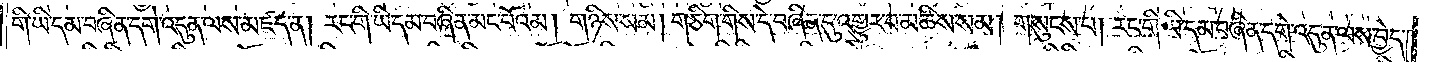གི་ཡི་དམ་བཞིན་དགེ་འདུན་ལས་མཛད་ན། རང་གི་ཡི་དམ་བཞིན་མང་པོའམ། གཉིས་སམ། གཅིག་གིས་དེ་བཞིན་དུ་འགྱུར་བ་མཆིས་སམ། གསུངས་པ། རང་གི་ཡི་དམ་བཞིན་དགེ་འདུན་ལས་བྱེད་
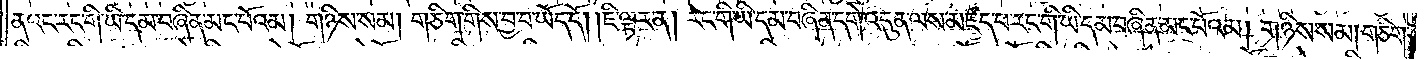ནའང་རང་གི་ཡི་དམ་བཞིན་མང་པོའམ། གཉིས་སམ། གཅིག་གིས་བྱ་བ་ཡོད་དོ། །ཇི་ལྟར་ན། རང་གི་ཡི་དམ་བཞིན་དགེ་འདུན་ལས་མཛད་པ་རང་གི་ཡི་དམ་བཞིན་མང་པོའམ། གཉིས་སམ། གཅིག་
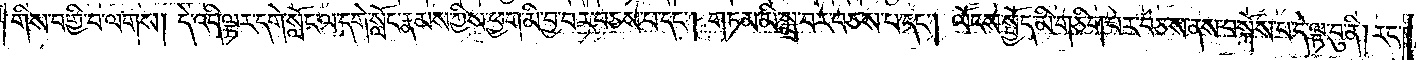གིས་བགྱི་བ་ལགས། དེ་འདི་ལྟར་དགེ་སློང་ལ་དགེ་སློང་རྣམས་ཀྱིས་ཕྱག་མི་བྱ་བར་བཅས་པ་དང༌། གཏམ་མི་སྨྲ་བར་བཅས་པ་དང༌། ལོངས་སྤྱོད་མི་གཅིག་པར་བཅས་ནས་བསྐོས་པ་དེ་ལྟ་བུ་ནི། རང་
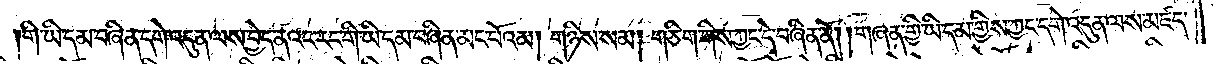གི་ཡི་དམ་བཞིན་དགེ་འདུན་ལས་བྱེད་ནའང་རང་གི་ཡི་དམ་བཞིན་མང་པོའམ། གཉིས་སམ། གཅིག་གིས་ཀྱང་དེ་བཞིན་ནོ། །གཞན་གྱི་ཡི་དམ་གྱིས་ཀྱང་དགེ་འདུན་ལས་མཛད་
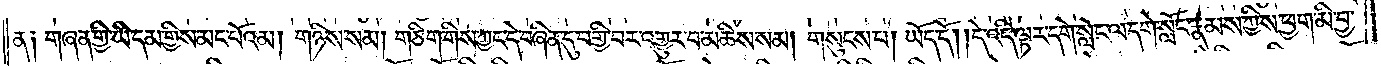ན༑ གཞན་གྱི་ཡི་དམ་གྱིས་མང་པོའམ། གཉིས་སམ། གཅིག་གིས་ཀྱང་དེ་བཞིན་དུ་བགྱི་བར་འགྱུར་བ་མཆིས་སམ། གསུངས་པ། ཡོད་དོ། །དེ་འདི་ལྟར་དགེ་སློང་ལ་དགེ་སློང་རྣམས་ཀྱིས་ཕྱག་མི་བྱ་
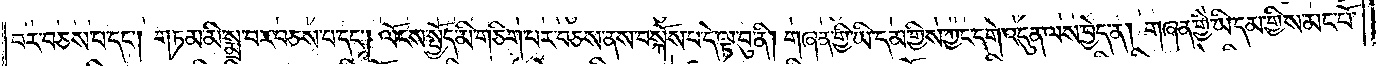བར་བཅས་པ་དང༌། གཏམ་མི་སྨྲ་བར་བཅས་པ་དང༌། ལོངས་སྤྱོད་མི་གཅིག་པར་བཅས་ནས་བསྐོས་པ་དེ་ལྟ་བུ་ནི། གཞན་གྱི་ཡི་དམ་གྱིས་ཀྱང་དགེ་འདུན་ལས་བྱེད་ན། གཞན་གྱི་ཡི་དམ་གྱིས་མང་པོ་
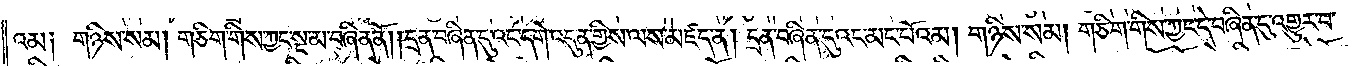འམ༑ གཉིས་སམ། གཅིག་གིས་ཀྱང་སྔ་མ་བཞིན་ནོ། །དྲན་བཞིན་དུའང་དགེ་འདུན་གྱིས་ལས་མཛད་ན། དྲན་བཞིན་དུའང་མང་པོའམ། གཉིས་སམ། གཅིག་གིས་ཀྱང་དེ་བཞིན་དུ་འགྱུར་བ་
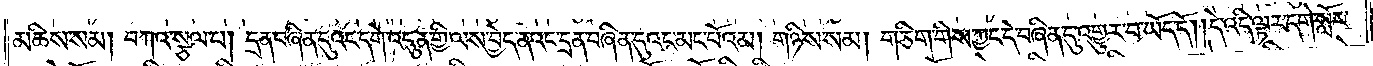མཆིས་སམ། བཀའ་སྩལ་པ། དྲན་བཞིན་དུའང་དགེ་འདུན་གྱི་ལས་བྱེད་ནའང་དྲན་བཞིན་དུའང་མང་པོའམ། གཉིས་སམ། གཅིག་གིས་ཀྱང་དེ་བཞིན་དུ་འགྱུར་བ་ཡོད་དོ། །དེ་འདི་ལྟར་དགེ་སློང་
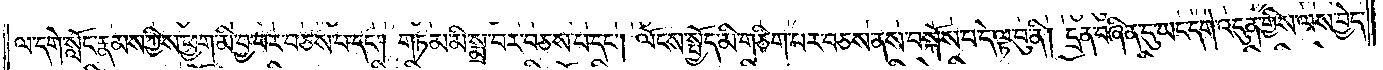ལ་དགེ་སློང་རྣམས་ཀྱིས་ཕྱག་མི་བྱ་བར་བཅས་པ་དང༌། གཏམ་མི་སྨྲ་བར་བཅས་པ་དང༌། ལོངས་སྤྱོད་མི་གཅིག་པར་བཅས་ནས་བསྐོས་པ་དེ་ལྟ་བུ་ནི། དྲན་བཞིན་དུ་ཡང་དགེ་འདུན་གྱིས་ལས་བྱེད་
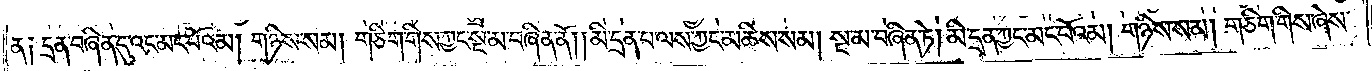ན༑ དྲན་བཞིན་དུའང་མང་པོའམ། གཉིས་སམ། གཅིག་གིས་ཀྱང་སྔ་མ་བཞིན་ནོ། །མི་དྲན་པ་ལས་ཀྱང་མཆིས་སམ། སྔ་མ་བཞིན་ཏེ། མི་དྲན་ཀྱང་མང་པོའམ། གཉིས་སམ། གཅིག་གིས་ཞེས་
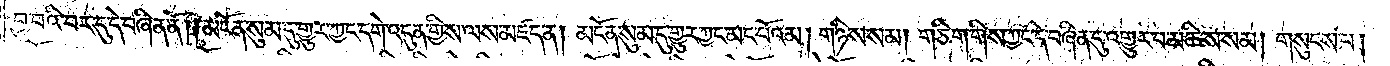བྱ་བའི་བར་དུ་དེ་བཞིན་ནོ། །མངོན་སུམ་དུ་གྱུར་ཀྱང་དགེ་འདུན་གྱིས་ལས་མཛད་ན། མངོན་སུམ་དུ་གྱུར་ཀྱང་མང་པོའམ། གཉིས་སམ། གཅིག་གིས་ཀྱང་དེ་བཞིན་དུ་འགྱུར་བ་མཆིས་སམ། གསུངས་པ།
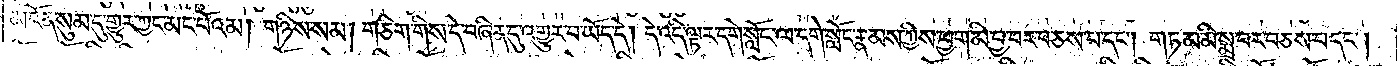མངོན་སུམ་དུ་གྱུར་ཀྱང་མང་པོའམ། གཉིས་སམ། གཅིག་གིས་དེ་བཞིན་དུ་འགྱུར་བ་ཡོད་དེ། དེ་འདི་ལྟར་དགེ་སློང་ལ་དགེ་སློང་རྣམས་ཀྱིས་ཕྱག་མི་བྱ་བར་བཅས་པ་དང༌། གཏམ་མི་སྨྲ་བར་བཅས་པ་དང༌།
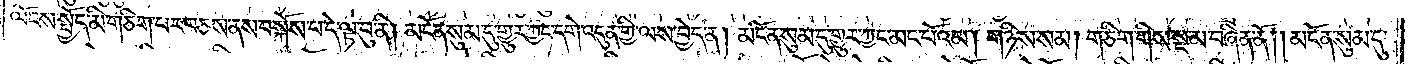ལོངས་སྤྱོད་མི་གཅིག་པར་བཅས་ནས་བསྐོས་པ་དེ་ལྟ་བུ་ནི། མངོན་སུམ་དུ་གྱུར་ཀྱང་དགེ་འདུན་གྱི་ལས་བྱེད་ན། མངོན་སུམ་དུ་གྱུར་ཀྱང་མང་པོའམ། གཉིས་སམ། གཅིག་གིས་སྔ་མ་བཞིན་ནོ། །མངོན་སུམ་དུ་
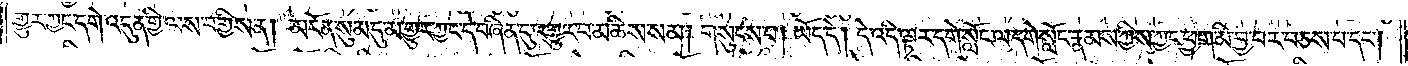གྱུར་ཀྱང་དགེ་འདུན་གྱི་ལས་བགྱིས་ན། མངོན་སུམ་དུ་མ་གྱུར་ཀྱང་དེ་བཞིན་དུ་འགྱུར་བ་མཆིས་སམ། གསུངས་པ། ཡོད་དེ། དེ་འདི་ལྟར་དགེ་སློང་ལ་དགེ་སློང་རྣམས་ཀྱིས་ཀྱང་ཕྱག་མི་བྱ་བར་བཅས་པ་དང༌།
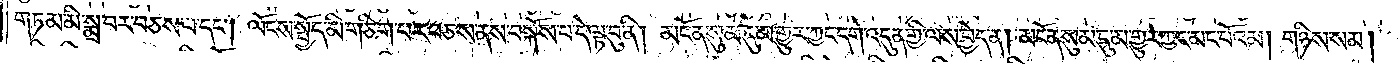གཏམ་མི་སྨྲ་བར་བཅས་པ་དང༌། ལོངས་སྤྱོད་མི་གཅིག་པར་བཅས་ནས་བསྐོས་པ་དེ་ལྟ་བུ་ནི། མངོན་སུམ་དུ་མ་གྱུར་ཀྱང་དགེ་འདུན་གྱི་ལས་བྱེད་ན། མངོན་སུམ་དུ་མ་གྱུར་ཀྱང་མང་པོའམ། གཉིས་སམ།
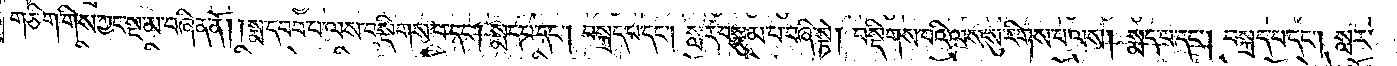གཅིག་གིས་ཀྱང་སྔ་མ་བཞིན་ནོ། །སྨ་དབབ་པ་ལས་བསྡིགས་པ་དང༌། སྨད་པ་དང༌། བསྐྲད་པ་དང༌། སླར་བསྡུམ་པ་བཞི་སྟེ། བསྡིགས་པའི་ལས་སུ་རིགས་པ་ལས། སྨད་པ་དང༌། བསྐྲད་པ་དང༌། སླར་
